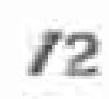12
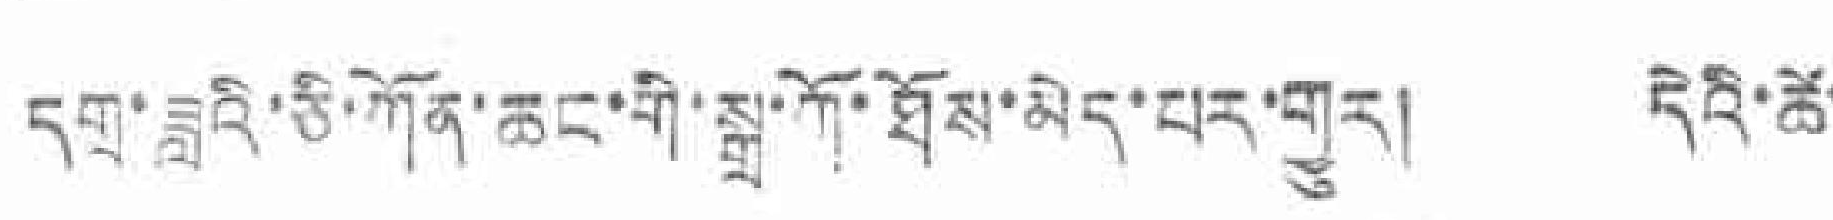དགྲ་ཟླའི་ཅི་ཀོན་ཆུང་གི་སྒྲ་ཀོ་ཐོས་མེད་པར་གྱུར། དེའི་ཚེ་
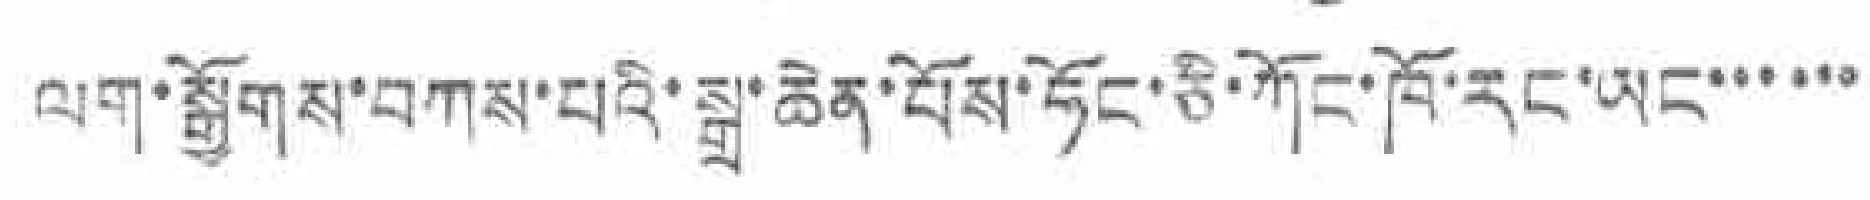ལག་སྒྱོགས་བཀས་པའི་སྒྲ་ཆེན་པོས་ཧོང་ཅི་ཀོང་ཁོ་རང་ཡང་་་་་་
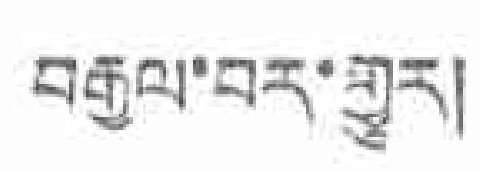བརྒྱལ་བར་གྱུར།
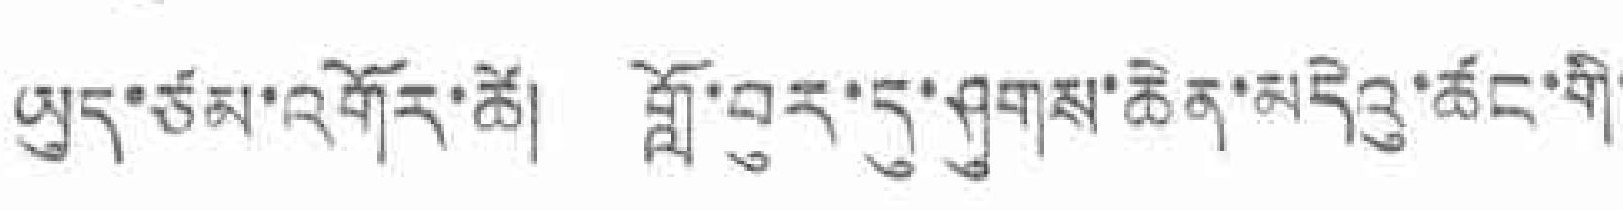ཡུད་ཙམ་འགོར་ཚེ། གློ་བུར་དུ་ཤུགས་ཆེན་མདེའུ་ཚང་གི་
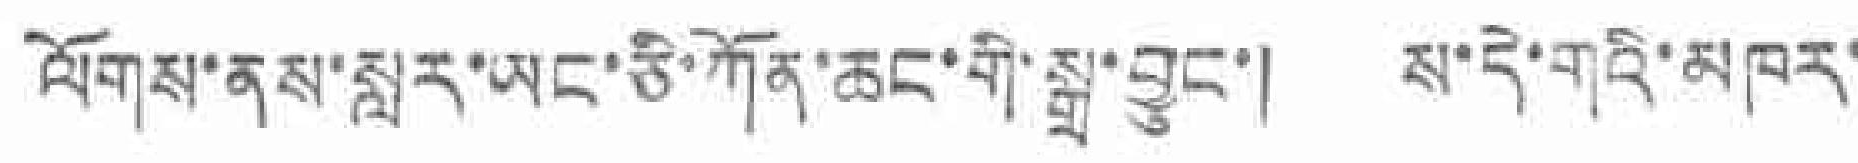ལོགས་ནས་སླར་ཡང་ཅི་ཀོན་ཆང་གི་སྒྲ་བྱུང་། ས་དེ་གའི་མཁར་
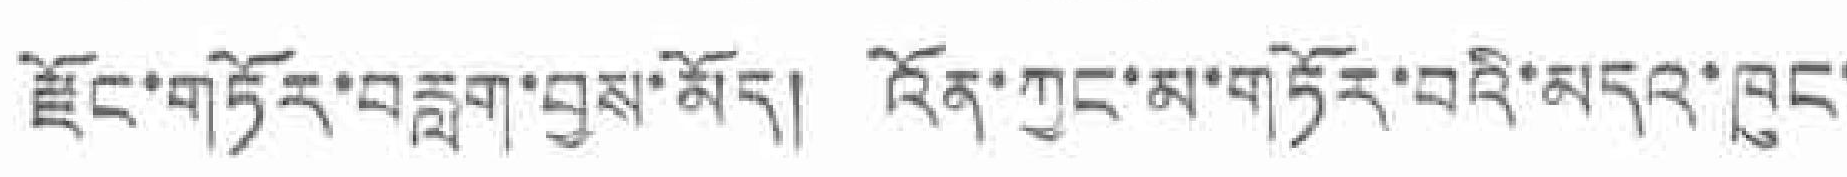རྫོང་གཏོར་བརླག་བྱས་མོད། འོན་ཀྱང་མ་གཏོར་བའི་མདའ་ཁུང་
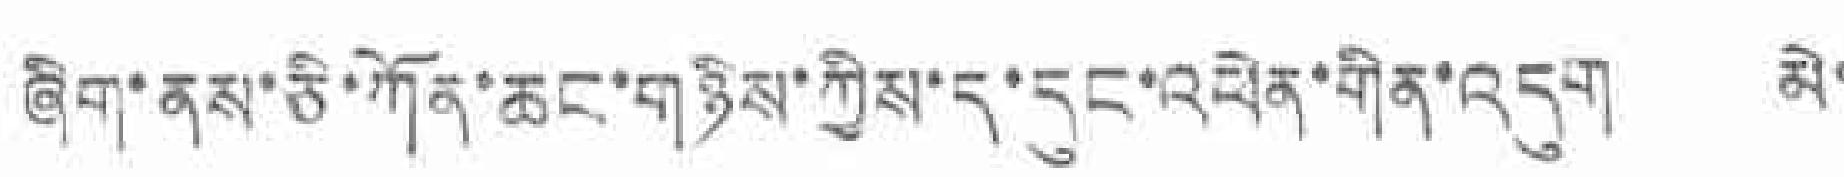ཞིག་ནས་ཅི་ཀོན་ཆུང་གཉིས་ཀྱིས་ད་དུང་འཕྲེན་གིན་འདུག མེ་
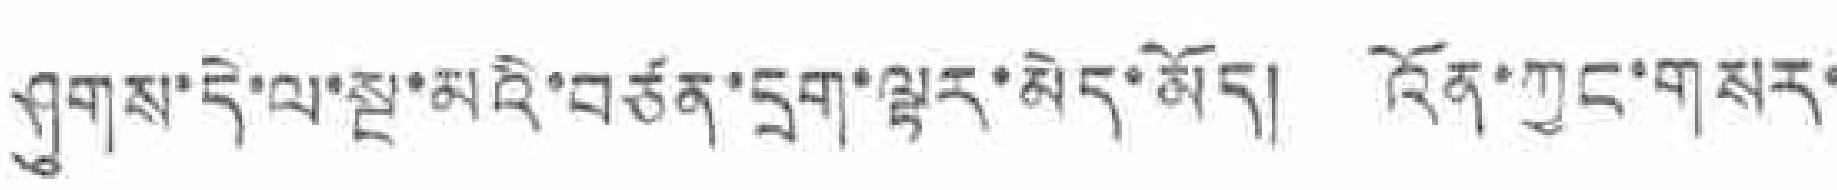ཤུགས་དེ་ལ་སྔ་མའི་བཙན་དྲག་ལྟར་མེད་མོད། འོན་ཀྱང་གསར་
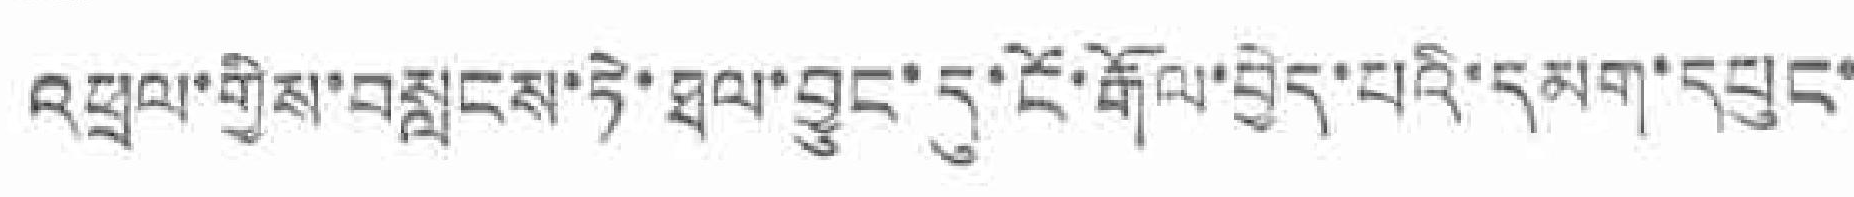འཕྲལ་གྱིས་བསླངས་ཏེ་ཐལ་བྱུང་དུ་ངོ་རྒོལ་བྱེད་པའི་དམག་དཔུང་
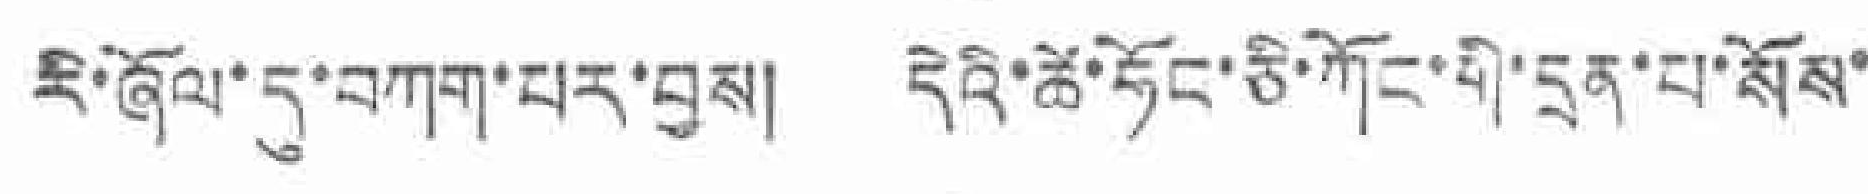རི་ཞོལ་དུ་བཀག་པར་བྱས། དེའི་ཚོ་ཧོང་ཅི་ཀོང་གི་དྲན་པ་སོས་
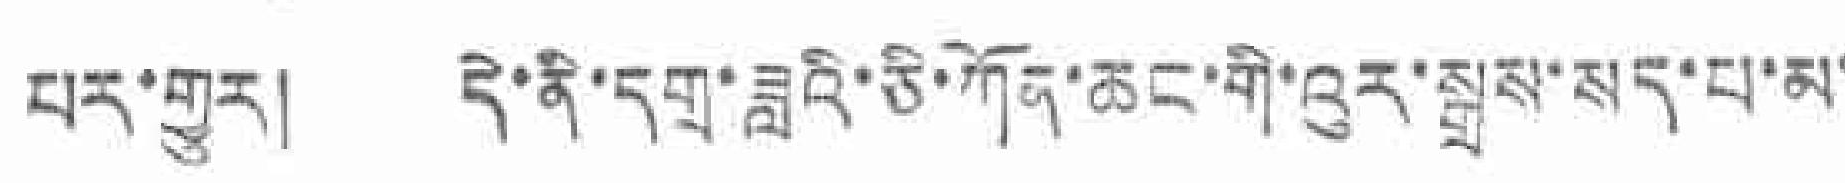པར་གྱུར། དེ་ནི་དགྲ་ཟླའི་ཅི་ཀོན་ཆང་གི་འུར་སྒྲས་སད་པ་མ་
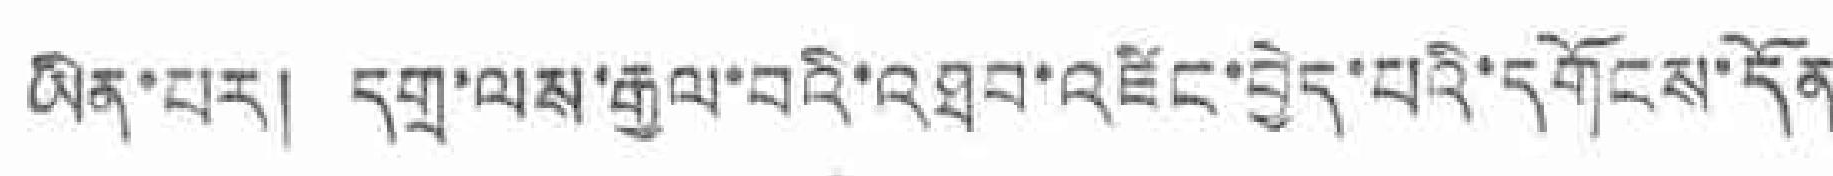ཡིན་པར། དགྲ་ལས་རྒྱལ་བའི་འཐབ་འཛོང་བྱེད་པའི་དགོངས་དོན་
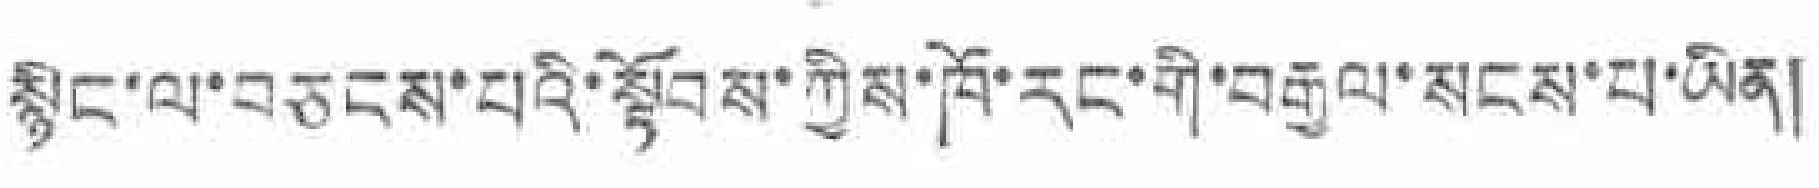སྙིང་ལ་བཅངས་པའི་སྟོབས་ཀྱིས་ཁོ་རང་གི་བརྒྱལ་སངས་པ་ཡིན།
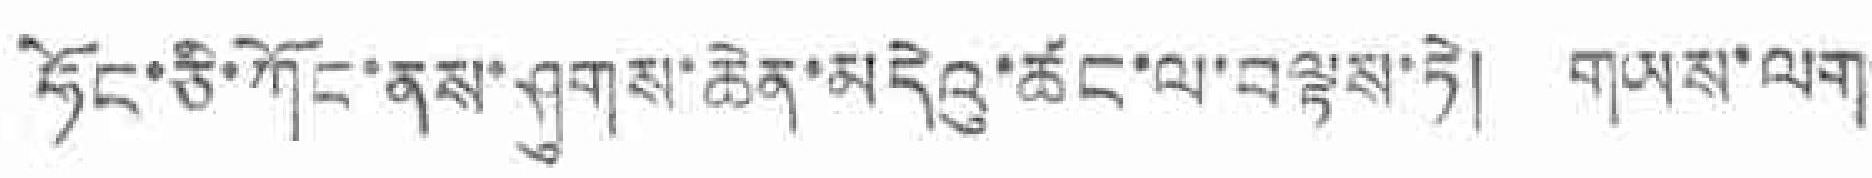ཧོང་ཅི་ཀོང་ནས་ཤུགས་ཆེན་མདེའུ་ཚང་ལ་བལྟས་ཏེ། གཡས་ལག
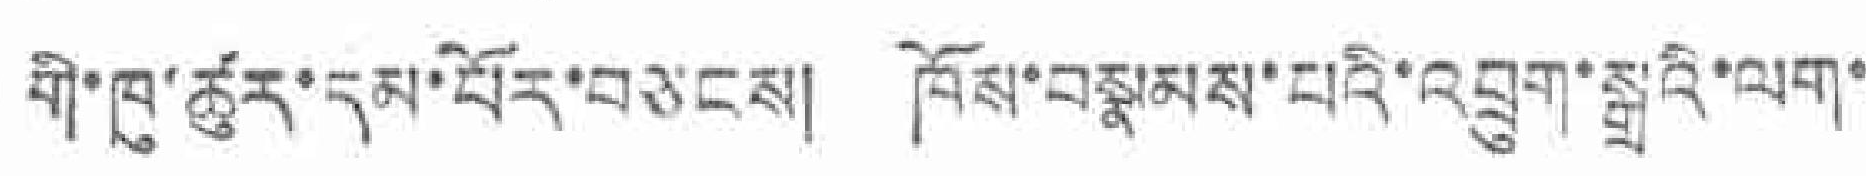གི་ཁུ་ཚུར་དམ་པོར་བཅངས། ཁོས་བསྣམས་པའི་འབྲུག་སྒྲའི་ལག་
